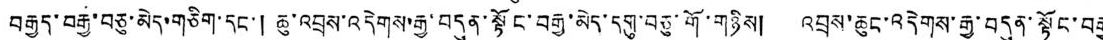བརྒྱད་བརྒྱ་བཅུ་མེད་གཅིག་དང་། ཆུ་འབྲས་འདེགས་རྒྱ་བདུན་སྟོང་བརྒྱ་མེད་དགུ་བཅུ་གོ་གཉིས། འབྲས་ཆུང་འདེགས་རྒྱ་བདུན་སྟོང་བརྒྱ
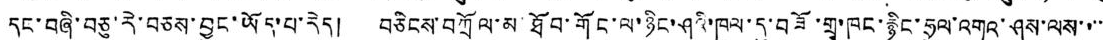དང་བཞི་བཅུ་རེ་བཅས་བྱུང་ཡོད་པ་རེད། བཅིངས་བཀྲོལ་མ་ཐོབ་གོང་ལ་ཉིང་ཤའི་ཁུལ་དུ་བཟོ་གྲྭ་ཁང་རྙིང་ཧྲུལ་འགའ་ཤས་ལས་་་་་
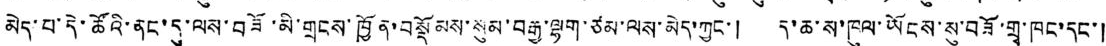མེད་པ་དེ་ཚོའི་ནང་དུ་ལས་བཟོ་མི་གྲངས་ཁྱོན་བསྡོམས་སུམ་བརྒྱ་ལྷག་ཙམ་ལས་མེད་ཀྱང་། ད་ཆ་ས་ཁུལ་ཡོངས་སུ་བཟོ་གྲྭ་ཁང་དང་།
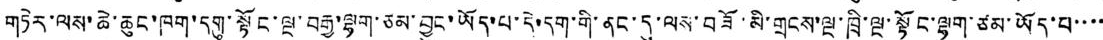གཏེར་ལས་ཆེ་ཆུང་ཁག་དགུ་སྟོང་ལྔ་བརྒྱ་ལྷག་ཙམ་བྱུང་ཡོད་པ་དེ་དག་གི་ནང་དུ་ལས་བཟོ་མི་གྲངས་ལྔ་ཁྲི་ལྔ་སྟོང་ལྷག་ཙམ་ཡོད་པ་་་་
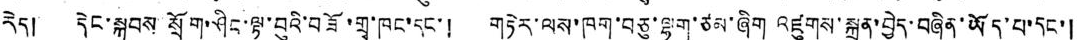རེད། དེང་སྐབས་སྲོག་ཤིང་ལྟ་བུའི་བཟོ་གྲྭ་ཁང་དང་། གཏེར་ལས་ཁག་བཅུ་ལྷག་ཙམ་ཞིག འཛུགས་སྐྲུན་བྱེད་བཞིན་ཡོད་པ་དང་།
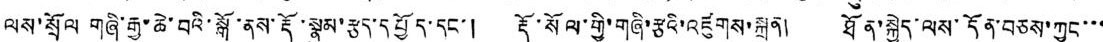ལས་སྲོལ གཞི་རྒྱ་ཆེ་བའི་སྒོ་ནས་རྡོ་སྣུམ་རྩད་དཔྱོད་དང་། རྡོ་སོལ་གྱི་གཞི་རྩའི་འཛུགས་སྐྲུན། ཐོན་སྐྱེད་ལས་དོན་བཅས་ཀྱང་་་
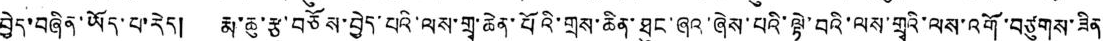བྱེད་བཞིན་ཡོད་པ་རེད། རྨ་ཆུ་རྩ་བཅོས་བྱེད་པའི་ལས་གྲྭ་ཆེན་པོའི་གྲས་ཆིན་ཐུང་ཞའ་ཞེས་པའི་ལྟེ་བའི་ལས་གྲྭའི་ལས་འགོ་བཙུགས་ཟིན
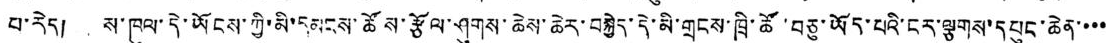པ་རེད། ས་ཁུལ་དེ་ཡོངས་ཀྱི་མི་དམངས་ཚོས་རྩོལ་ཤུགས་ཆེས་ཆེར་བསྐྱིད་དེ་མི་གྲངས་ཁྲི་ཚོ་བཅུ་ཡོད་པའི་ངར་ལྕགས་དཔུང་ཆེན་་་་
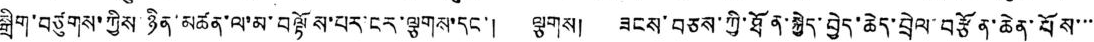སྒྲིག་བཙུགས་ཀྱིས་ཉིན་མཚན་ལ་མ་བལྟོས་པར་ངར་ལྕགས་དང་། ལྕགས། ཟངས་བཅས་ཀྱི་ཐོན་སྐྱེད་བྱེད་ཆེད་བྲེལ་བརྩོན་ཆེན་པོས་་་་
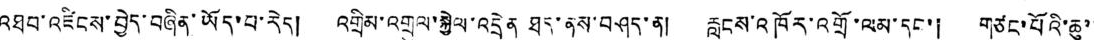འཐབ་འཛིངས་བྱེད་བཞིན་ཡོད་པ་རེད། འགྲིམ་འགྲུལ་སྐྱེལ་འདྲེན ཐད་ནས་བཤད་ན། རླངས་འཁོར་འགྲོ་ལམ་དང་། གཙང་པོའི་ཆུ་་
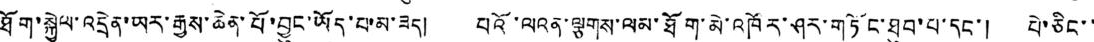ཐོག་སྐྱེལ་འདྲེན་ཡར་རྒྱས་ཆེན་པོ་བྱུང་ཡོད་པ་མ་ཟད། པའོ་ལའན་ལྕགས་ལམ་ཐོག་མེ་འཁོར་ཤར་གཏོང་ཐུབ་པ་དང་། པེ་ཅིང་་
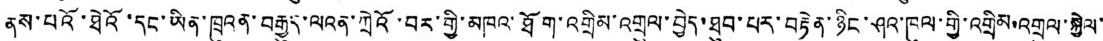ནས་པའོ་ཐེའོ་དང་ཡིན་ཁྲུའན་བརྒྱུད་ལའན་ཀྲེའོ་བར་གྱི་མཁའ་ཐོག་འགྲིམ་འཁྲུལ་བྱེད་ཐུབ་པར་བརྟེན་ཉིང་ཤའ་ཁུལ་གྱི་འགྲིམ་འགྲུལ་སྐྱེལ་
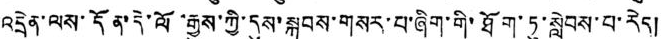འདྲེན་ལས་དོན་དེ་ལོ་རྒྱུས་ཀྱི་དུས་སྐབས་གསར་པ་ཞིག་གི་ཐོག་ཏུ་སླེབས་པ་རེད།
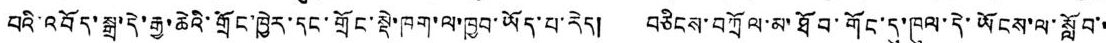པའི་འབོད་སྒྲ་དེ་རྒྱ་ཆེའི་གྲོང་ཁྱེར་དང་གྲོང་སྡེ་ཁག་ལ་ཁྱབ་ཡོད་པ་རེད། བཅིངས་བཀྲོལ་མ་ཐོབ་གོང་དུ་ཁུལ་དེ་ཡོངས་ལ་སློབ་་
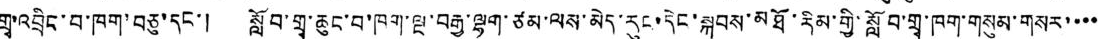གྲྭ་འབྲིང་བ་ཁག་བཅུ་དང་། སློབ་གྲྭ་ཆུང་བ་ཁག་ལྔ་བརྒྱ་ལྷག་ཙམ་ལས་མེད་རུང་དེང་སྐབས་མཐོ་རིམ་གྱི་སློབ་གྲྭ་ཁག་གསུམ་གསར་་་་
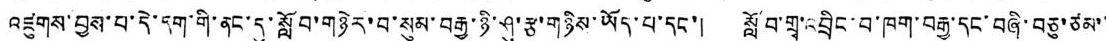འཛུགས་བྱས་པ་དེ་དག་གི་ནང་དུ་སློབ་གཉེར་བ་སུམ་བརྒྱ་ཉི་ཤུ་རྩ་གཉིས་ཡོད་པ་དང་། སློབ་གྲྭ་འབྲིང་བ་ཁག་བརྒྱ་དང་བཞི་བཅུ་ཙམ་་
